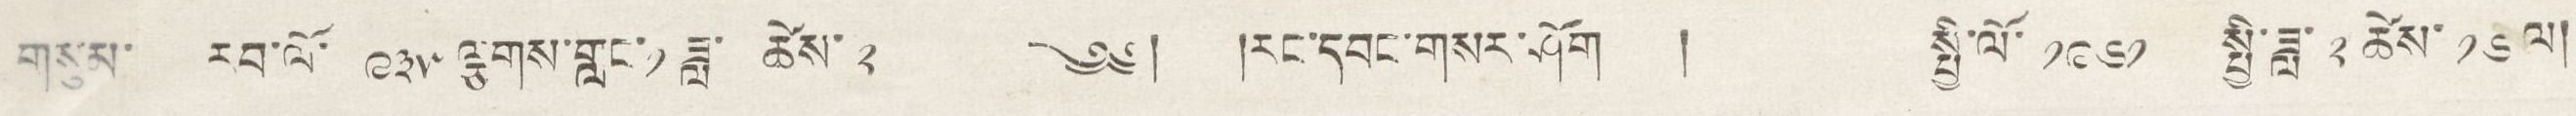གསུམ་ རབ་ལོ་ ༩༣༥ ལྕགས་གླང་༡ཟླ་ ཚེས་ ༢ ༄༅། །རང་དབང་གསར་ཤོག ། སྤྱི་ལོ་ ༡༩༦༡ སྤྱི་ཟླ་ ༢ ཚེས་ ༡༦ ལ།
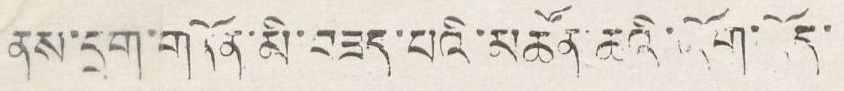ནས་དྲག་གནོན་མི་བཟད་པའི་མཚོན་ཆའི་འོག་བོད་
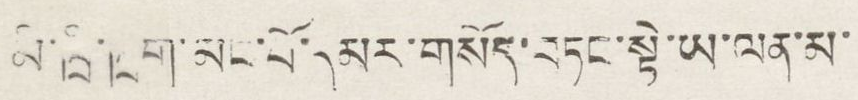མི་ཁྲི་ཁྲག་མང་པོ་དམར་གསོད་བཏང་སྟེ་ཡ་ལན་མ་
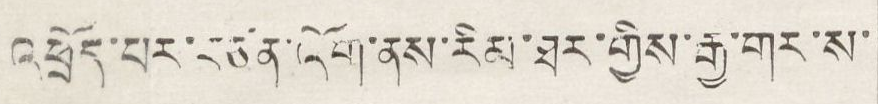འཕྲོད་པར་མཙན་འོག་ནས་རིམ་ཐར་གྱིས་རྒྱ་གར་ས་
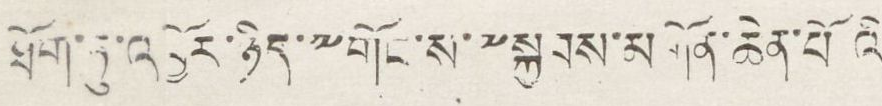ཐོག་ཏུ་འབྱོར་ཉིད་༸གོང་ས་༸སྐྱབས་མགོན་ཆེན་པོའི་
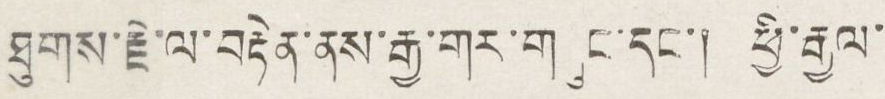ཐུགས་རྗེ་ལ་བརྟེན་ནས་རྒྱ་གར་གཞུང་དང་། ཕྱི་རྒྱལ་
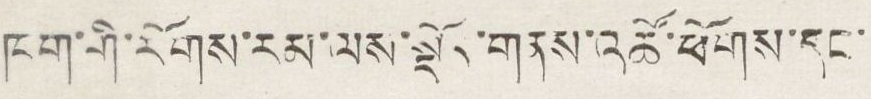ཁག་གི་རོགས་རམ་ལས་སྡོད་གནས་འཚོ་ཕོགས་དང་
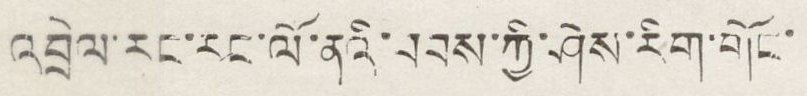འབྲེལ་རང་རང་ལོ་ནའི་བབས་ཀྱི་ཤེས་རིག་གོང་
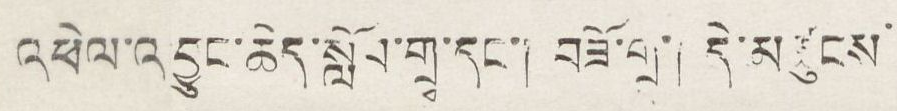འཕེལ་འབྱུང་ཆེད་སློབ་གྲྭ་དང་། བཟོ་གྲྭ་། དེ་མཚུངས་
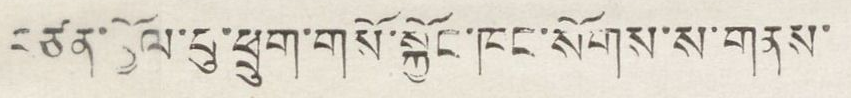བཙན་བྱོལ་བུ་ཕྲུག་གསོ་སྐྱོང་ཁང་སོགས་ས་གནས་
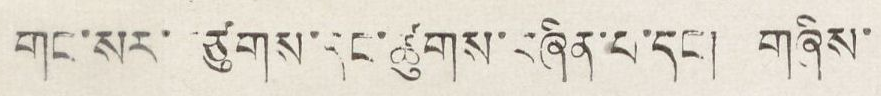གང་སར་གཙུགས་དང་ཚུགས་བཞིན་པ་དང་། གཞིས་
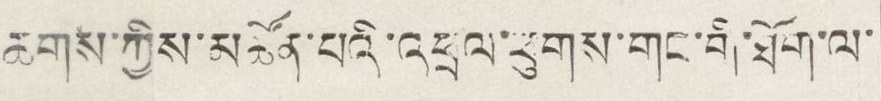ཆགས་ཀྱིས་མཚོན་པའི་འཕྲལ་ཕུགས་གང་གི་ཐོག་ལ་
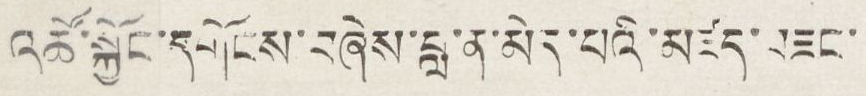འཚོ་སྐྱོང་དགོངས་བཞེས་བླ་ན་མེད་པའི་མཛད་བཟང་
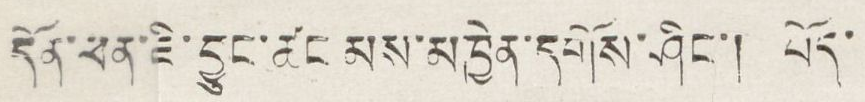དོན་ཕན་ཇི་བྱུང་ཚང་མས་མཁྱེན་དགོས་ཤིང་། བོད་
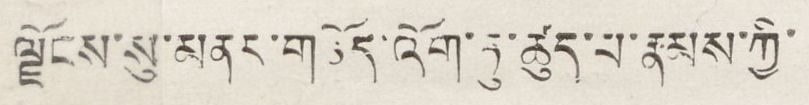ལྗོངས་སུ་མནར་གཅོད་འོག་ཏུ་ཚུད་པ་རྣམས་ཀྱི་
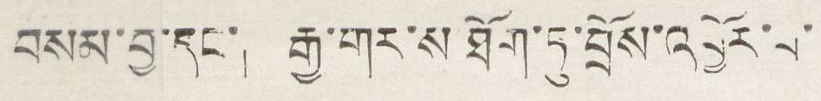བསམ་བྱ་དང་། རྒྱ་གར་ས་ཐོག་ཏུ་བྲོས་འབྱོར་བ་
